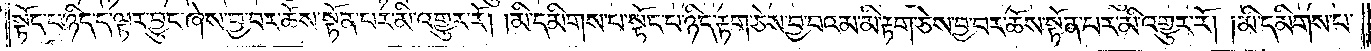སྟོང་པ་ཉིད་ད་ལྟར་བྱུང་ཞེས་བྱ་བར་ཆོས་སྟོན་པར་མི་འགྱུར་རོ། །མི་དམིགས་པ་སྟོང་པ་ཉིད་རྟག་ཅེས་བྱ་བའམ་མི་རྟག་ཅེས་བྱ་བར་ཆོས་སྟོན་པར་མི་འགྱུར་རོ། །མི་དམིགས་པ་
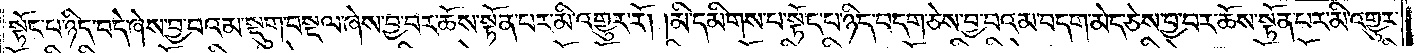སྟོང་པ་ཉིད་བདེ་ཞེས་བྱ་བའམ་སྡུག་བསྔལ་ཞེས་བྱ་བར་ཆོས་སྟོན་པར་མི་འགྱུར་རོ། །མི་དམིགས་པ་སྟོང་པ་ཉིད་བདག་ཅེས་བྱ་བའམ་བདག་མེད་ཅེས་བྱ་བར་ཆོས་སྟོན་པར་མི་འགྱུར་
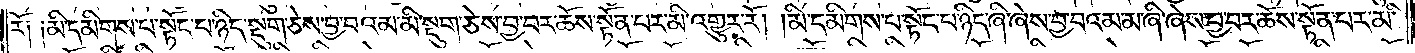རོ༑ ༑མི་དམིགས་པ་སྟོང་པ་ཉིད་སྡུག་ཅེས་བྱ་བའམ་མི་སྡུག་ཅེས་བྱ་བར་ཆོས་སྟོན་པར་མི་འགྱུར་རོ། །མི་དམིགས་པ་སྟོང་པ་ཉིད་ཞི་ཞེས་བྱ་བའམ་མ་ཞི་ཞེས་བྱ་བར་ཆོས་སྟོན་པར་མི་
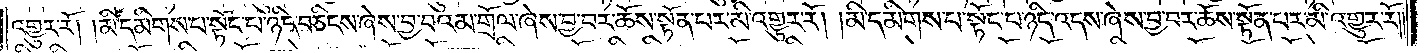འགྱུར་རོ། །མི་དམིགས་པ་སྟོང་པ་ཉིད་བཅིངས་ཞེས་བྱ་བའམ་གྲོལ་ཞེས་བྱ་བར་ཆོས་སྟོན་པར་མི་འགྱུར་རོ། །མི་དམིགས་པ་སྟོང་པ་ཉིད་འདས་ཞེས་བྱ་བར་ཆོས་སྟོན་པར་མི་འགྱུར་རོ། །
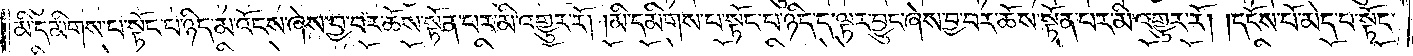མི་དམིགས་པ་སྟོང་པ་ཉིད་མ་འོངས་ཞེས་བྱ་བར་ཆོས་སྟོན་པར་མི་འགྱུར་རོ། །མི་དམིགས་པ་སྟོང་པ་ཉིད་ད་ལྟར་བྱུང་ཞེས་བྱ་བར་ཆོས་སྟོན་པར་མི་འགྱུར་རོ། །དངོས་པོ་མེད་པ་སྟོང་
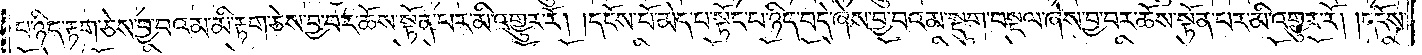པ་ཉིད་རྟག་ཅེས་བྱ་བའམ་མི་རྟག་ཅེས་བྱ་བར་ཆོས་སྟོན་པར་མི་འགྱུར་རོ། །དངོས་པོ་མེད་པ་སྟོང་པ་ཉིད་བདེ་ཞེས་བྱ་བའམ་སྡུག་བསྔལ་ཞེས་བྱ་བར་ཆོས་སྟོན་པར་མི་འགྱུར་རོ། །དངོས་
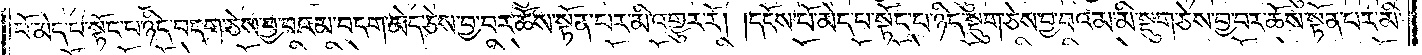པོ་མེད་པ་སྟོང་པ་ཉིད་བདག་ཅེས་བྱ་བའམ་བདག་མེད་ཅེས་བྱ་བར་ཆོས་སྟོན་པར་མི་འགྱུར་རོ། །དངོས་པོ་མེད་པ་སྟོང་པ་ཉིད་སྡུག་ཅེས་བྱ་བའམ་མི་སྡུག་ཅེས་བྱ་བར་ཆོས་སྟོན་པར་མི་
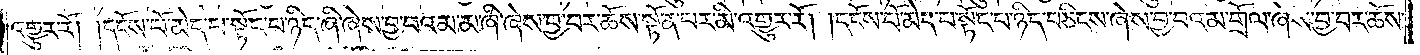འགྱུར་རོ། །དངོས་པོ་མེད་པ་སྟོང་པ་ཉིད་ཞི་ཞེས་བྱ་བའམ་མ་ཞི་ཞེས་བྱ་བར་ཆོས་སྟོན་པར་མི་འགྱུར་རོ། །དངོས་པོ་མེད་པ་སྟོང་པ་ཉིད་བཅིངས་ཞེས་བྱ་བའམ་གྲོལ་ཞེས་བྱ་བར་ཆོས་
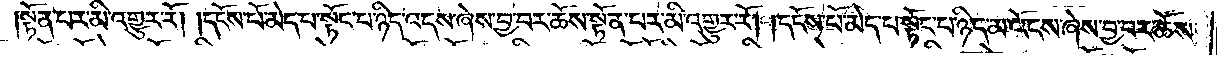སྟོན་པར་མི་འགྱུར་རོ། །དངོས་པོ་མེད་པ་སྟོང་པ་ཉིད་འདས་ཞེས་བྱ་བར་ཆོས་སྟོན་པར་མི་འགྱུར་རོ། །དངོས་པོ་མེད་པ་སྟོང་པ་ཉིད་མ་འོངས་ཞེས་བྱ་བར་ཆོས་
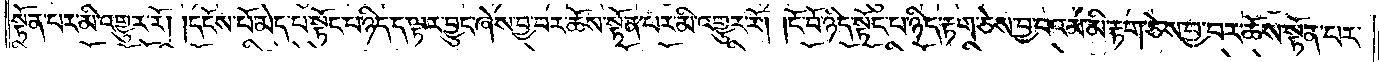སྟོན་པར་མི་འགྱུར་རོ། །དངོས་པོ་མེད་པ་སྟོང་པ་ཉིད་ད་ལྟར་བྱུང་ཞེས་བྱ་བར་ཆོས་སྟོན་པར་མི་འགྱུར་རོ། །ངོ་བོ་ཉིད་སྟོང་པ་ཉིད་རྟག་ཅེས་བྱ་བའམ་མི་རྟག་ཅེས་བྱ་བར་ཆོས་སྟོན་པར་
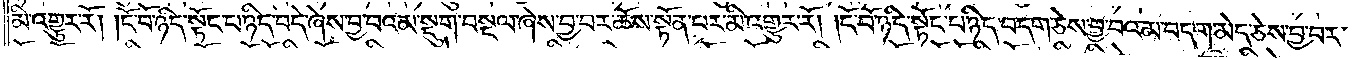མི་འགྱུར་རོ། །ངོ་བོ་ཉིད་སྟོང་པ་ཉིད་བདེ་ཞེས་བྱ་བའམ་སྡུག་བསྔལ་ཞེས་བྱ་བར་ཆོས་སྟོན་པར་མི་འགྱུར་རོ། །ངོ་བོ་ཉིད་སྟོང་པ་ཉིད་བདག་ཅེས་བྱ་བའམ་བདག་མེད་ཅེས་བྱ་བར་
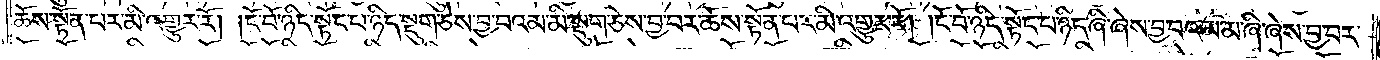ཆོས་སྟོན་པར་མི་འགྱུར་རོ། །ངོ་བོ་ཉིད་སྟོང་པ་ཉིད་སྡུག་ཅེས་བྱ་བའམ་མི་སྡུག་ཅེས་བྱ་བར་ཆོས་སྟོན་པར་མི་འགྱུར་རོ། །ངོ་བོ་ཉིད་སྟོང་པ་ཉིད་ཞི་ཞེས་བྱ་བའམ་མ་ཞི་ཞེས་བྱ་བར་
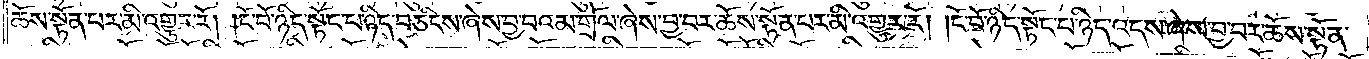ཆོས་སྟོན་པར་མི་འགྱུར་རོ། །ངོ་བོ་ཉིད་སྟོང་པ་ཉིད་བཅིངས་ཞེས་བྱ་བའམ་གྲོལ་ཞེས་བྱ་བར་ཆོས་སྟོན་པར་མི་འགྱུར་རོ། །ངོ་བོ་ཉིད་སྟོང་པ་ཉིད་འདས་ཞེས་བྱ་བར་ཆོས་སྟོན་
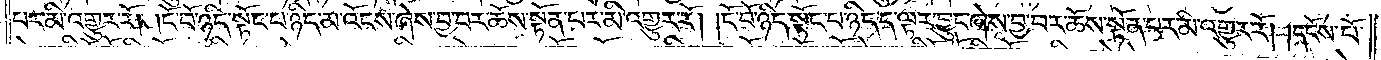པར་མི་འགྱུར་རོ། །ངོ་བོ་ཉིད་སྟོང་པ་ཉིད་མ་འོངས་ཞེས་བྱ་བར་ཆོས་སྟོན་པར་མི་འགྱུར་རོ། །ངོ་བོ་ཉིད་སྟོང་པ་ཉིད་ད་ལྟར་བྱུང་ཞེས་བྱ་བར་ཆོས་སྟོན་པར་མི་འགྱུར་རོ། །དངོས་པོ་
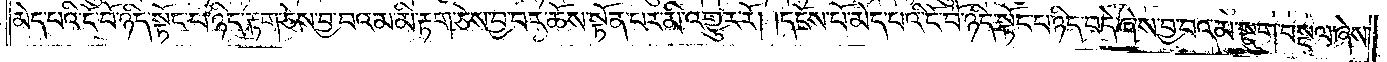མེད་པའི་ངོ་བོ་ཉིད་སྟོང་པ་ཉིད་རྟག་ཅེས་བྱ་བའམ་མི་རྟག་ཅེས་བྱ་བར་ཆོས་སྟོན་པར་མི་འགྱུར་རོ། །དངོས་པོ་མེད་པའི་ངོ་བོ་ཉིད་སྟོང་པ་ཉིད་བདེ་ཞེས་བྱ་བའམ་སྡུག་བསྔལ་ཞེས་
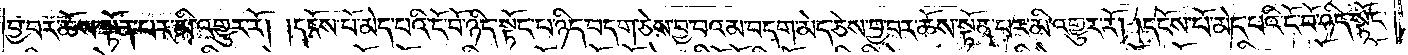བྱ་བར་ཆོས་སྟོན་པར་མི་འགྱུར་རོ། །དངོས་པོ་མེད་པའི་ངོ་བོ་ཉིད་སྟོང་པ་ཉིད་བདག་ཅེས་བྱ་བའམ་བདག་མེད་ཅེས་བྱ་བར་ཆོས་སྟོན་པར་མི་འགྱུར་རོ། །དངོས་པོ་མེད་པའི་ངོ་བོ་ཉིད་སྟོང་
